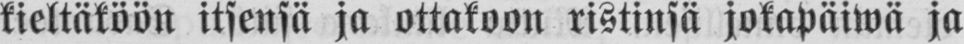kieltäköön itsensä ja ottakoon ristinsä jokapäiwä ja
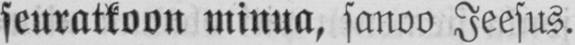seuratkoon minua, sanoo Jeesus.
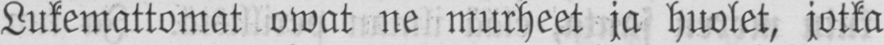Lukemattomat owat ne murheet ja huolet, jotka
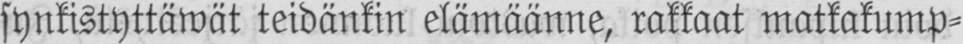synkistyttäwät teidänkin elämäänne, rakkaat matkakump-
